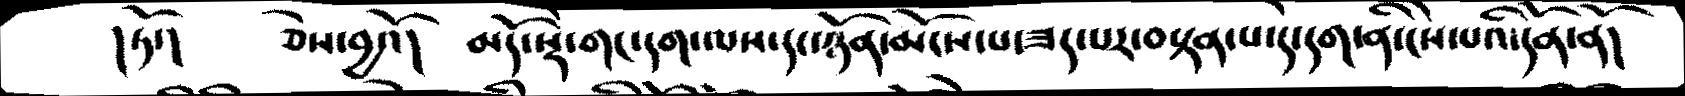།ཏོ་།    ཅེས་བྱའོ།   མདོ་སྡེ་གང་དག་ལས་དང་ཉོན་མོངས་པ་ཟད་པར་བསྟན་པ་དེ་དག་ནི་ངེས་པའི་དོན་ནོ།
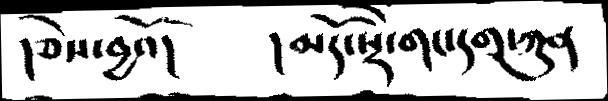།ཅེས་བྱའོ།   །མདོ་སྡེ་གང་དག་ཀུན
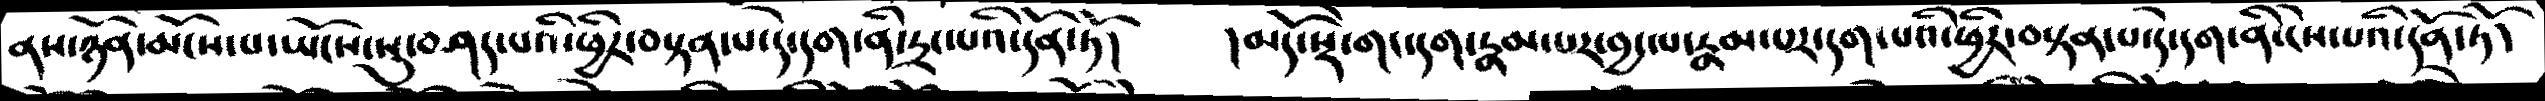ནས་ཉོན་མོངས་པ་ཡོངས་སུ་བཤད་པའི་ཕྱིར་བསྟན་པ་དེ་དག་ནི་དྲང་པའི་དོན་ཏོ།     །མདོ་སྡེ་གང་དག་རྣམ་པར་བྱང་པ་རྣམཔར་དག་པའི་ཕྱིར་བསྟན་པ་དེ་དག་ནི་ངེས་པའི་དོན་ཏོ་
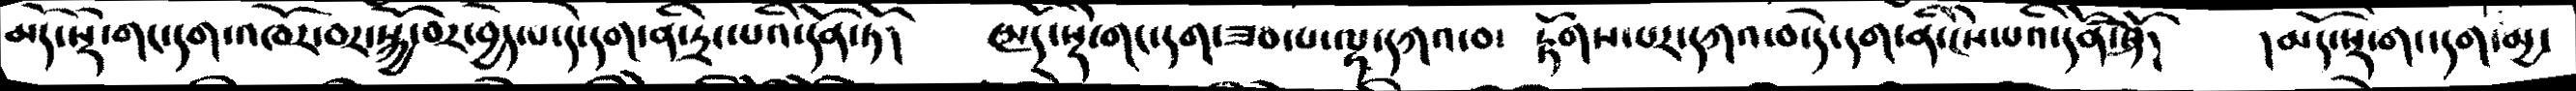མདོ་སྡེ་གང་དག་འཁོར་བར་སྐྱོ་བར་བྱེད་པ་དེ་དག་ནི་དྲང་པའི་དོན་ཏོ།      མདོ་སྡེ་གང་དག་ཟབ་པ་ལྟ་དཀའ་བ་    རྟོགས་པར་དཀའ་བ་དེ་དག་ནི་ངེས་པའི་དོན་ཏོ།    །མདོ་སྡེ་གང་དག་མྱ་
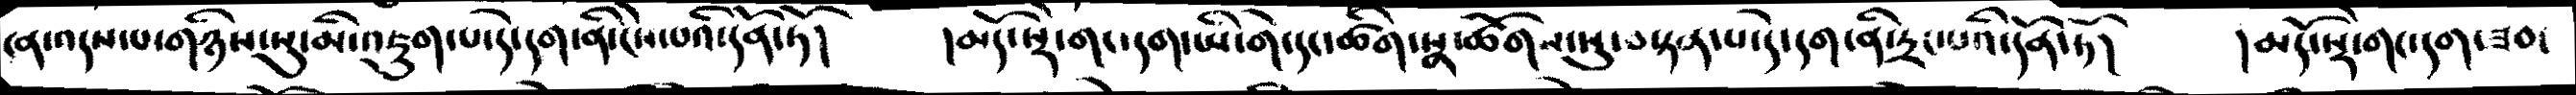ངན་འདས་པ་གཉིས་སུ་མི་འཇུག་པ་དེ་དག་ནི་ངེས་པའི་དོན་ཏོ།    །མདོ་སྡེ་གང་དག་ཡི་གེ་དང་ཚིག་སྣ་ཚོགས་སུ་བསྟན་པ་དེ་དག་ནི་དྲང་པའི་དོན་ཏོ།    །མདོ་སྡེ་གང་དག་ཟབ་
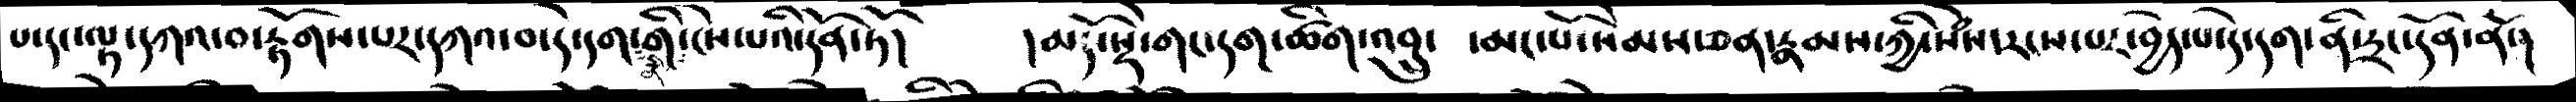པ་དང་ལྟ་དཀའ་བ་རྟོགས་པར་དཀའ་བ་དེ་དག་ནི་གི་ངེས་པའི་དོན་ཏོ།    །མདོ་སྡེ་གང་དག་ཚིག་འབྲུ་    ་མང་པོ་སེམས་ཅན་རྣམས་ཀྱི་སེཾས་རངས་པར་བྱེད་པ་དེ་དག་ནི་ཏྲང་དོན་ནོ་།
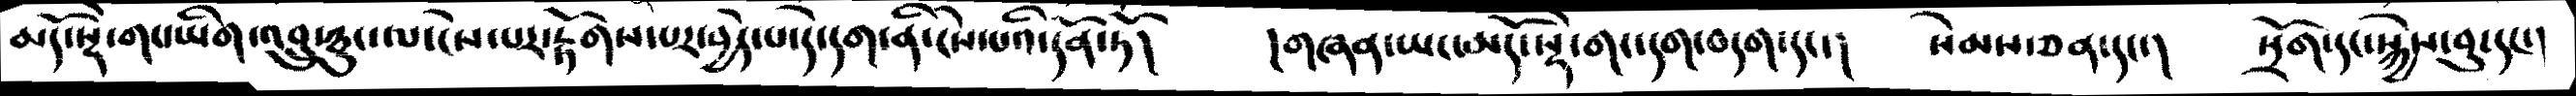མདོ་སྡེ་གང་ཡིན་འབྲུ་ཉུང་ལ་ངེས་པར་རྟོགས་པར་བྱེད་པ་དེ་དག་ནི་ངེས་པའི་དོན་ཏོ།    །གཞན་ཡང་མདོ་སྡེ་གང་དག་བདག་དང་།   སེམས་ཅན་དང་།   སྲོག་དང་སྐྱེས་བུ་དང་།
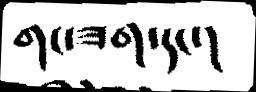གང་ཟག་དང་།
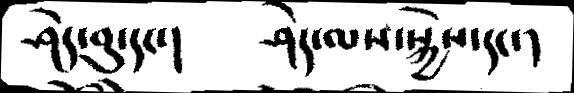ཤེད་བུ་དང་།     ཤེད་ལས་སྐྱེས་དང་།
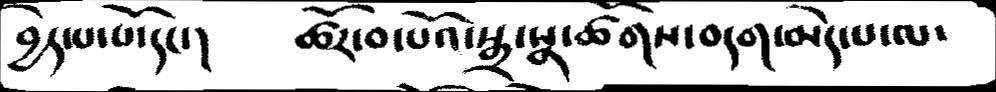བྱེད་པ་པོ་དང་།     ཚོར་བ་པའོ་སྒྲ་སྣ་ཚོགས་བདག་མེད་པ་ལ་
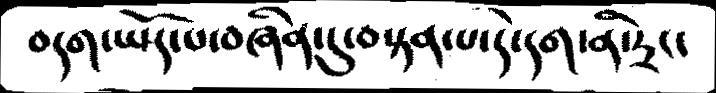བདག་ཡོད་པ་བཞིན་དུ་བསྟན་པ་དེ་དག་ནི་ཏྲང་
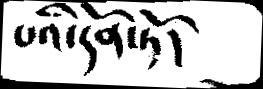པའི་དོན་ཏོ།
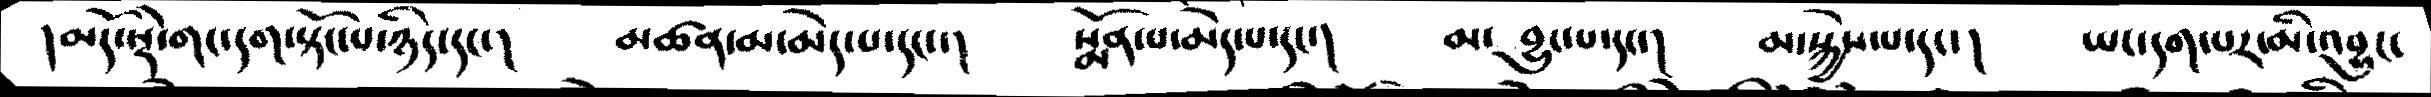།མདོ་སྡེ་གང་དག་སྟོང་པ་ཉིད་དང་།    མཚན་མ་མེད་པ་དང་།     སྨོན་པ་མེད་པ་དང་།   མ་ བྱུང་པ་དང་།    མ་སྐྱེས་པ་དང་།   ཡང་དག་པར་མི་འབྱུང་
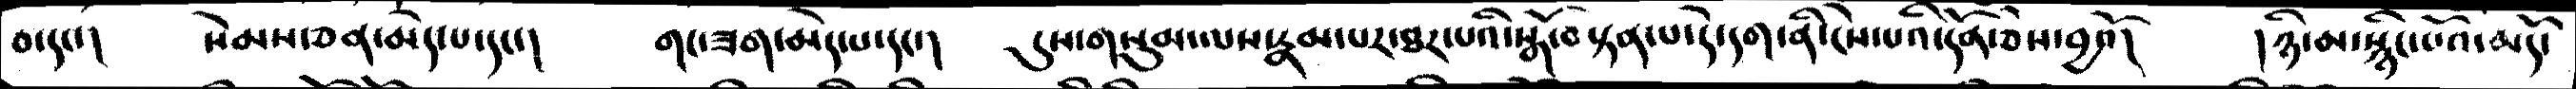བ་དང་།    སེམས་ཅན་མེད་པ་དང་།   གང་ཟག་མེད་པ་དང་།  དུས་གསུམ་ལས་རྣམ་པར་ཐར་པའི་སྒོ་བསྟན་པ་དེ་དག་ནི་ངེས་པའི་དོན་ཅེས་བྱའོ།    །ཉི་མ་སྙིང་པོའ་མདོ་
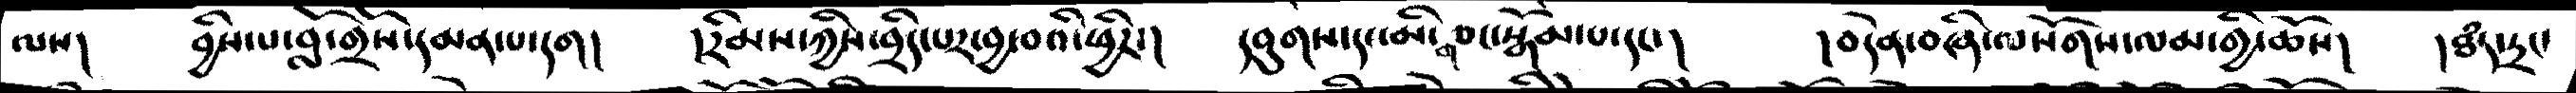ལས།    བྱིས་པ་བློ་གྲོས་དམན་པ་དག།     །རིམས་ཀྱིས་བྲིད་པར་བྱ་བའི་ཕྱིར་།     དབུགས་དང་མི་གཙང་སྒོམ་པ་དང་།     །བདེན་བཞི་ལསོགས་ལམ་གྱི་ཆོས།   །ཐཾད་ཏྲང་
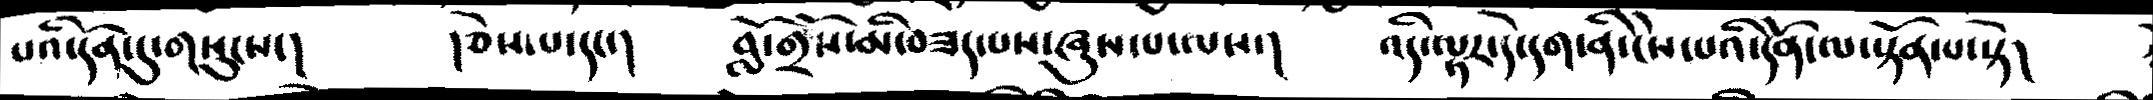པའི་དོན་དུ་གསུངས་།    །ཅེས་པ་དང་།     བློ་གྲོས་མི་བཟད་པས་ཞུས་པ་ལས་།     འདི་ལྟར་དེ་དག་ནི་ངེས་པའི་དོན་ལ་སྟོན་པ་སྟེ།
